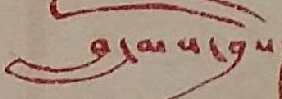བླ་མས་བྲིས་
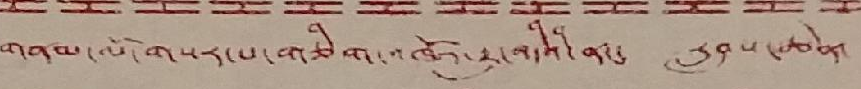གནམ་ལོ་གསར་པ་གཅིག་འཁོར་རྒྱུ་འདིའི་ནང་ རླབས་ཆེན་
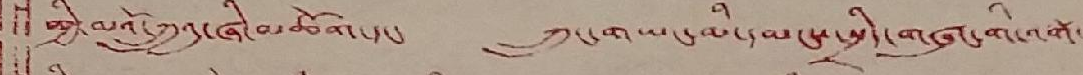གྱི་མའོ་ཀྲུའུ་ཞི་མཆོག་དང་ ཀྲུང་གཡང་མི་དམངས་སྲིད་གཞུང་གི་འགོ་
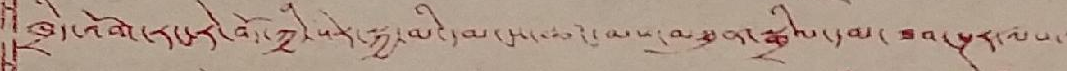ཁྲིད་འོག་རང་རེ་བོད་ཀྱི་སེར་སྐྱ་མི་དམངས་ཚང་མས་མཐུན་སྒྲིལ་དམ་ཟབ་སྔར་ལས་
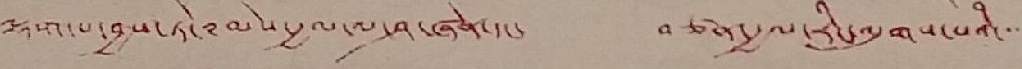ལྷག་པ་བྱས་ཏེ་མེས་རྒྱལ་ལ་ཤ་ཞེན་དང་ བཙན་རྒྱལ་རིང་ལུགས་པའི་་་
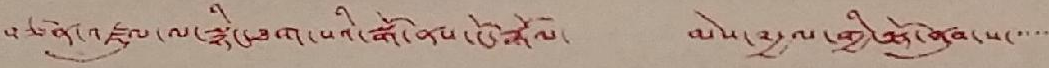བཙན་འཛུལ་ལ་སྙིང་ཐག་པའི་སྒོ་ནས་ངོ་རྒོལ་ མེས་༸རྒྱལ་གྱི་ལྷོ་ནུབ་ས་་་་་
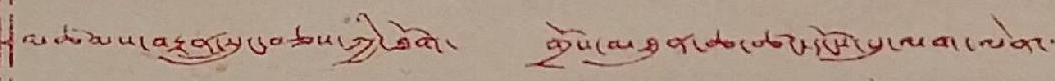མཚམས་བརྟན་སུང་བཅས་ཀྱི་ཐོག་ གྲོས་མཐུན་ཆ་ཚང་དངོས་སུ་ལག་ལེན་་་
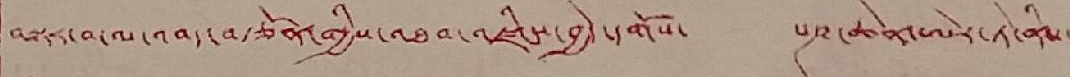བསྟར་བ་ལ་འབད་བརྩོན་གྱིས་འཐབ་འཛིངས་བྱེད་དགོས་ པཎ་ཆེན་ཨེར་ཏེ་ནིས་
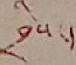བྲིས་།
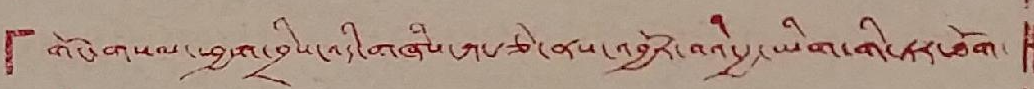「གོང་གསལ་ཕྱག་བྲིས་འདི་གཞིས་ཀ་རྩེ་ནས་འབྱོར་བའི་རྒྱ་ཡིག་གི་ཏར་ཐོག་
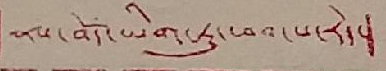ནས་བོད་ཡིག་ཏུ་ཕབ་པ་རེད་།
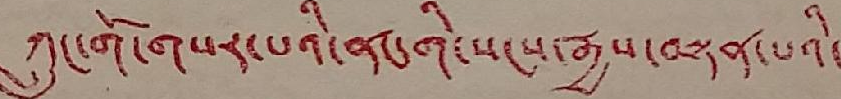ཀྲུང་གོ་གསར་པའི་ནང་གི་སངས་རྒྱས་བསྟན་པའི་
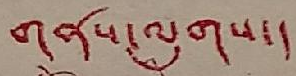གནས་ལུགས་།
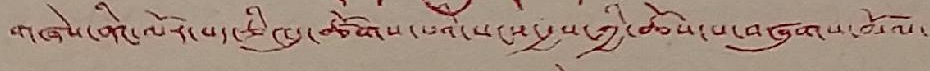གཞེས་ནིང་ལོར་པད་ཅིང་དུ་ཚོགས་པའི་སངས་རྒྱས་ཀྱི་ཆོས་པ་བཞུགས་མོལ་
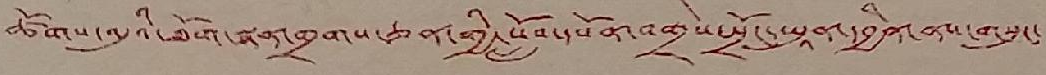ཚོགས་འདུའི་ཐོག་སྙན་གྲགས་ཅན་གྱི་སློབ་དཔོན་བགྲེས་སྲོང་ཡཱུན་དབྱིན་ནས་གསུང་
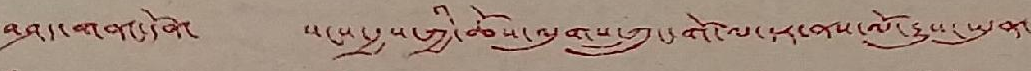བཤད་གནང་དོན་ སངས་རྒྱས་ཀྱི་ཆོས་ལུགས་ཀྲུང་གོ་ལ་དར་ནས་ལོ་རྒྱུས་ཡུན་
